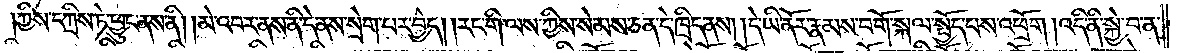ཀྱིས་དཀྲིས་ཏེ་ཕྱུང་ནས་ནི། །མེ་འབར་ནས་ནི་དེ་ནས་སྲེག་པར་བྱེད། །རང་གི་ལས་ཀྱིས་སེམས་ཅན་དེ་ཁྲིད་ནས། །དེ་ཡི་ནོར་རྣམས་བགོ་སྐལ་སྤྱོད་པས་འཕྲོག །འདི་ནི་སྐྱེ་བ་ན་
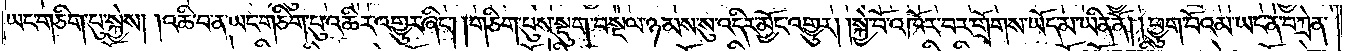ཡང་གཅིག་པུ་སྐྱེས། །འཆི་བ་ན་ཡང་གཅིག་པུ་འཆིར་འགྱུར་ཞིང༌། །གཅིག་པུས་སྡུག་བསྔལ་ཉམས་སུ་འདིར་མྱོང་འགྱུར། །སྐྱེ་བོ་འཁོར་བར་གྲོགས་ཡོད་མ་ཡིན་ནོ། །ཕྱུག་པོའམ་ཡང་ན་བཀྲེན་
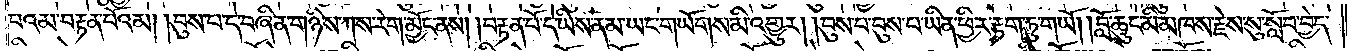བའམ་བརྟན་པོའམ། །བུས་པ་དེ་བཞིན་གཉིས་ཀས་རེག་མྱོང་ནས། །བརྟན་པོ་དེ་ཡིས་ནམ་ཡང་གཡོགས་མི་འགྱུར། །བུས་པ་བུས་པ་ཡིན་ཕྱིར་རྟག་ཏུ་གཡོ། །བློ་ཆུང་མི་མཁས་རྗེས་སུ་སློབ་བྱེད་
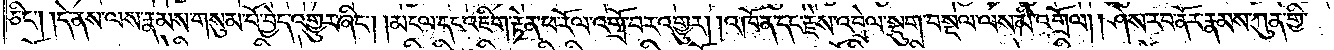ཅིང༌། །དེ་ནས་ལས་རྣམས་གསུམ་པོ་བྱེད་འགྱུར་ཞིང༌། །མངལ་དང་འཇིག་རྟེན་ཕ་རོལ་འགྲོ་བར་འགྱུར། །འཁོན་དང་རྗེས་འབྲེལ་སྡུག་བསྔལ་ལས་མི་འགྲོལ། །ཤེས་རབ་ནོར་རྣམས་ཀུན་གྱི་
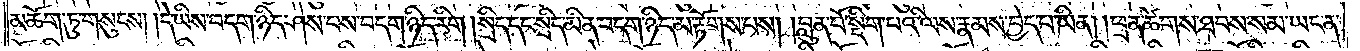མཆོག་ཏུ་གསུངས། །དེ་ཡིས་བདག་ཉིད་ཤེས་པས་བདག་ཉིད་རིག །སྲིད་དང་སྲིད་མིན་བདག་ཉིད་མ་རྟོགས་པས། །བླུན་པོ་སྡིག་པའི་ལས་རྣམས་བྱེད་པ་ཡིན། །ཕྲན་ཚེགས་ཐབས་སམ་ཡང་ན་
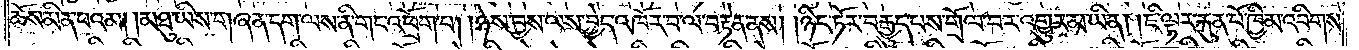ཆོས་མིན་པའམ། །མཐུ་ཡིས་གཞན་དག་ལས་ནི་གང་འཕྲོག་པ། །ཉེས་བྱས་ལས་བྱེད་འཁོར་བ་ལ་བརྟེན་ནས། །ཉིང་ཏོར་བརྒྱུད་པས་གྲོལ་བར་འགྱུར་མ་ཡིན། །ཇི་ལྟར་རྐུན་པོ་ཁྱིམ་འབིགས་
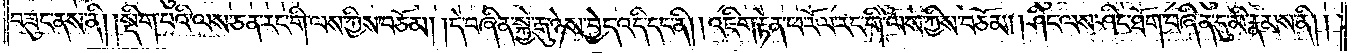བཟུང་ནས་ནི། །སྡིག་པའི་ལས་ཅན་རང་གི་ལས་ཀྱིས་བཅོམ། །དེ་བཞིན་སྐྱེ་རྒུ་ཉེས་བྱེད་འདི་དང་ནི། །འཇིག་རྟེན་ཕ་རོལ་རང་གི་ལས་ཀྱིས་བཅོམ། །ཤིང་ལས་ཤིང་ཐོག་བཞིན་དུ་མི་རྣམས་ནི། །
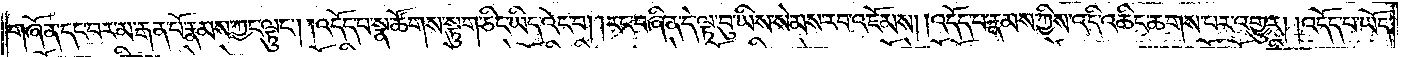གཞོན་དང་བར་མ་རྒན་པོ་རྣམས་ཀྱང་ལྟུང༌། །འདོད་པ་སྣ་ཚོགས་སྟུག་ཅིང་ཡིད་འོང་བ། །རང་བཞིན་དེ་ལྟ་བུ་ཡིས་སེམས་རབ་འཇོམས། །འདོད་པ་རྣམས་ཀྱིས་འདི་འཆིང་ཆགས་པར་འགྱུར། །འདོད་པ་ཡོད་
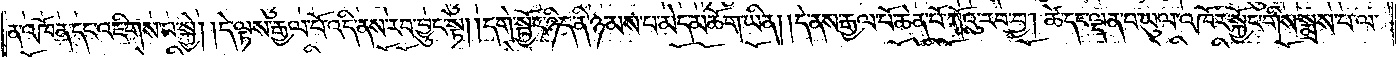ན་འཁོན་དང་འཇིགས་པ་སྐྱེ། །དེ་ལྟས་རྒྱལ་པོ་འདི་ནས་རབ་བྱུང་སྟེ། །དགེ་སྦྱོང་ཉིད་ནི་ཉམས་པ་མེད་མཆོག་ཡིན། །དེ་ནས་རྒྱལ་པོ་ཆེན་པོ་ཀོའུ་རབ་བྱ། ཚེ་དང་ལྡན་པ་ཡུལ་འཁོར་སྐྱོང་གིས་སྨྲས་པ་ལ་
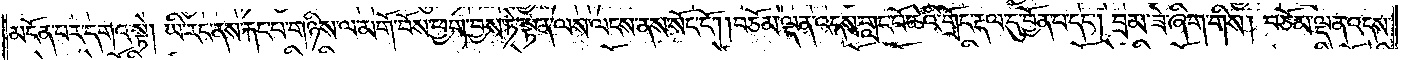མངོན་པར་དགའ་སྟེ། ཡི་རང་ནས་རྐང་པ་གཉིས་ལ་མགོ་བོས་ཕྱག་བྱས་ཏེ་སྟན་ལས་ལངས་ནས་སོང་ངོ༌། །བཅོམ་ལྡན་འདས་གླང་པོ་ཆེའི་གྲོང་རྡལ་དུ་བྱོན་པ་དང༌། བྲམ་ཟེ་ཞིག་གིས། བཅོམ་ལྡན་འདས་
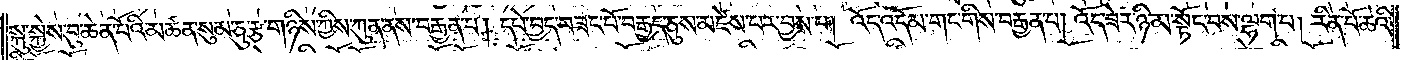སྐུ་སྐྱེས་བུ་ཆེན་པོའི་མཚན་སུམ་ཅུ་རྩ་གཉིས་ཀྱིས་ཀུན་ནས་བརྒྱན་པ། དཔེ་བྱད་བཟང་པོ་བརྒྱད་ཅུས་མཛེས་པར་བྱས་པ། འོད་འདོམ་གང་གིས་བརྒྱན་པ། འོད་ཟེར་ཉི་མ་སྟོང་བས་ལྷག་པ། རིན་པོ་ཆེའི་
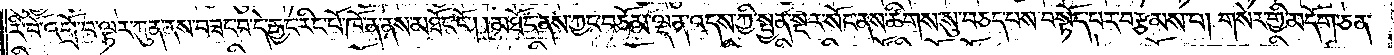རི་བོ་འགྲོ་བ་ལྟར་ཀུན་ནས་བཟང་བ་དེ་རྒྱང་རིང་པོ་ཁོ་ན་ནས་མཐོང་ངོ༌། །མཐོང་ནས་ཀྱང་བཅོམ་ལྡན་འདས་ཀྱི་སྤྱན་སྔར་སོང་ནས་ཚིགས་སུ་བཅད་པས་བསྟོད་པར་བརྩམས་པ། གསེར་གྱི་མདོག་ཅན་
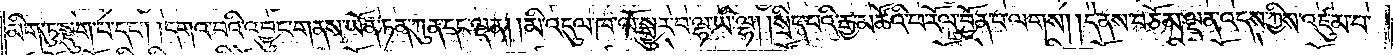མིག་ཏུ་སྡུག་པ་དང༌། །དགའ་བའི་འབྱུང་གནས་ཡོན་ཏན་ཀུན་དང་ལྡན། །མི་འདུལ་ཁ་ལོ་སྒྱུར་བ་ལྷ་ཡི་ལྷ། །སྲིད་པའི་རྒྱ་མཚོའི་ཕ་རོལ་བྱོན་པ་ལགས། །དེ་ནས་བཅོམ་ལྡན་འདས་ཀྱིས་འཛུམ་པ་
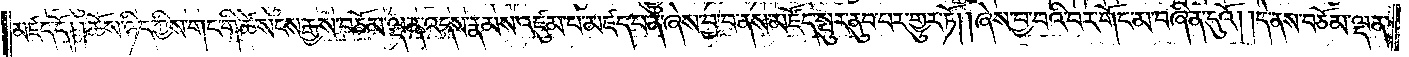མཛད་དོ། །ཆོས་ཉིད་ཀྱིས་གང་གི་ཚེ་སངས་རྒྱས་བཅོམ་ལྡན་འདས་རྣམས་འཛུམ་པ་མཛད་པ་ན་ཞེས་བྱ་བ་ནས་མཛོད་སྤུར་ནུབ་པར་གྱུར་ཏོ། །ཞེས་བྱ་བའི་བར་གོང་མ་བཞིན་དུའོ། །དེ་ནས་བཅོམ་ལྡན་
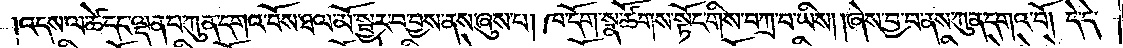།འདས་ལ་ཚེ་དང་ལྡན་པ་ཀུན་དགའ་བོས་ཐལ་མོ་སྦྱར་བ་བྱས་ནས་ཞུས་པ། ཁ་དོག་སྣ་ཚོགས་སྟོང་གིས་བཀྲ་བ་ཡིས། །ཞེས་བྱ་བ་ནས་ཀུན་དགའ་བོ། དེ་དེ་
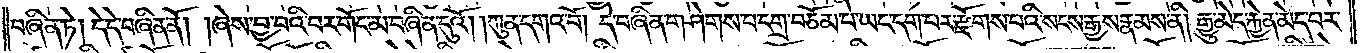བཞིན་ཏེ། དེ་དེ་བཞིན་ནོ། །ཞེས་བྱ་བའི་བར་གོང་མ་བཞིན་དུའོ། །ཀུན་དགའ་བོ། དེ་བཞིན་གཤེགས་པ་དགྲ་བཅོམ་པ་ཡང་དག་པར་རྫོགས་པའི་སངས་རྒྱས་རྣམས་ནི། རྒྱུ་མེད་རྐྱེན་མེད་བར་
